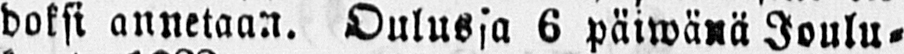doksi annetaan. Oulussa 6 päiwänä Joulu-
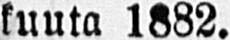kuuta 1882.
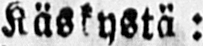Käskystä:
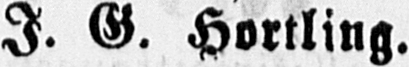I. G. Hortling.
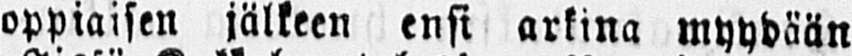Loppiaisen jälkeen ensi arkina myydään
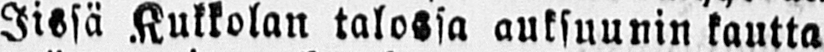Iissä Kukkolan talossa auksuunin kautta
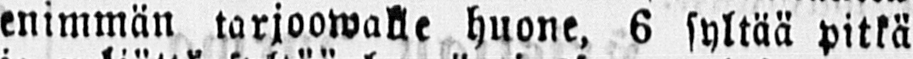enimmän tarjoowalle huone, 6 syltää pitkä
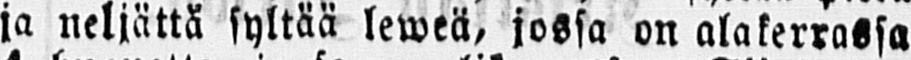ja neljättä syltää leweä, jossa on alakerrassa
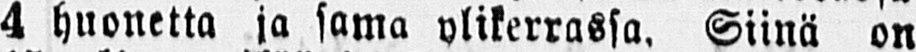4 huonetta ja sama ylikerrassa. Siinä on
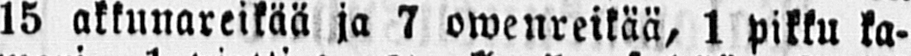15 akkunareikää ja 7 owenreikää, 1 pikku ka-
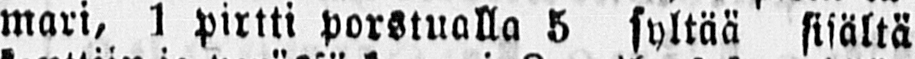mari, 1 pirtti porstualla 5 syltää sisältä
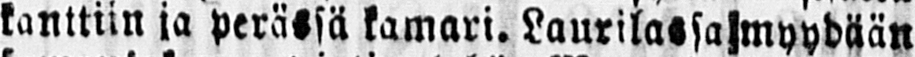kanttiin ja perässä kamari. Laurilassa myydään
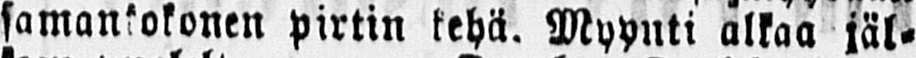samankokonen pirtin kehä. Myynti alkaa jäl-
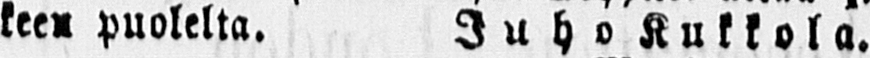keen puolelta. Juho Kukkola.
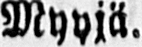Myyjä.
